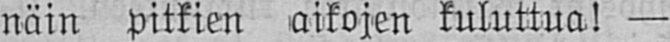näin pitkien aikojen kuluttua! —
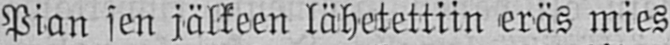Pian sen jälkeen lähetettiin eräs mies
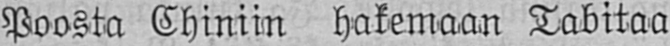Paosta Chiniin hakemaan Tabitaa
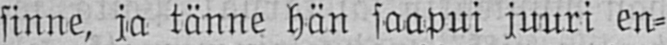sinne, ja tänne hän saapui juuri en-
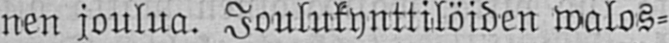nen joulua. Joulukynttilöiden walos-
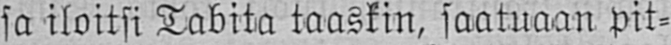sa iloitsi Tabita taaskin, saatuaan pit-
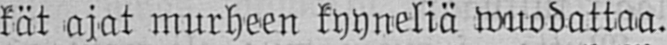kät ajat murheen kyyneliä wuodattaa.
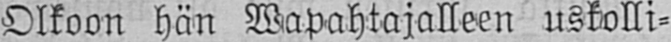Olkoon hän Wapahtajalleen uskolli-
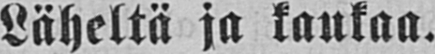Läheltä ja kaukaa.
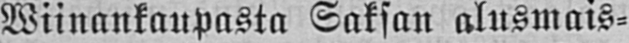Wiinankaupasta Saksan alusmais-
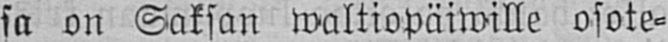sa on Saksan waltiopäiwille osote-
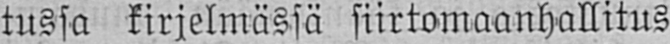tussa kirjelmässä siirtomaanhallitus
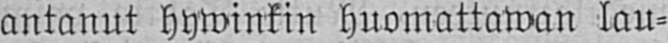antanut hywinkin huomattawan lau-
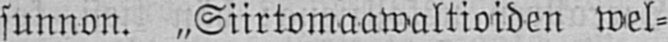sunnon. „Siirtomaawaltioiden wel-
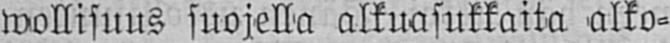wollisuus suojella alkuasukkaita alko-
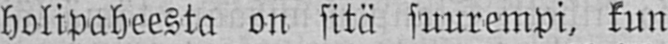holipaheesta on sitä suurempi, kun
